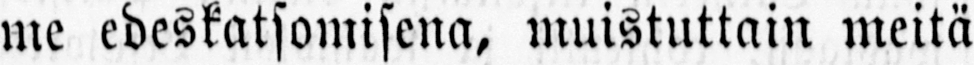me edeskatsomisena, muistuttain meitä
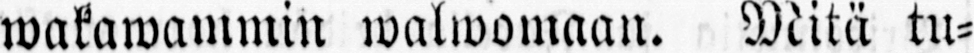wakawammin walwomaan. Mitä tu-
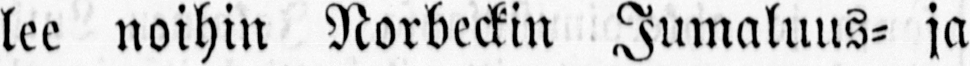lee noihin Norbeckin Jumaluus- ja
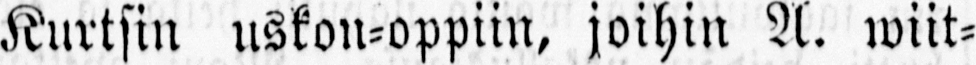Kurtsin uskon-oppiin, joihin N. wiit-
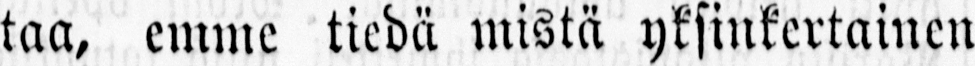taa, emme tiedä mistä yksinkertainen
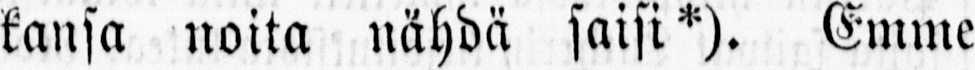kansa noita nähdä saisi*). Emme
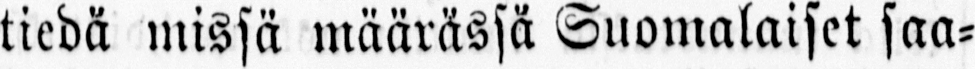tiedä missä määrässä Suomalaiset saa-
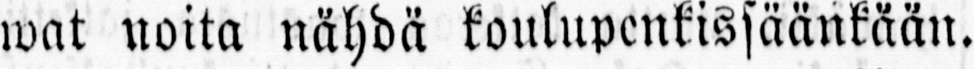wat noita nähdä koulupenkissäänkään.
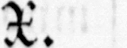X.
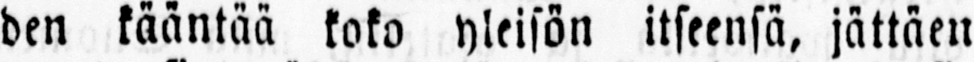den kääntää koko yleisön itseensä, jättäen
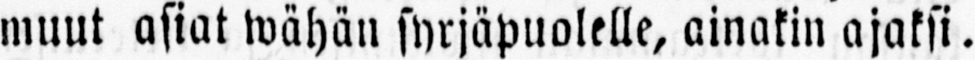muut asiat wähän syrjäpuolelle, ainakin ajaksi.
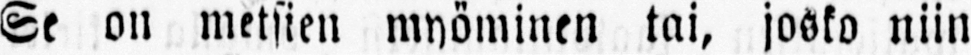Se on metsien myöminen tai, josko niin
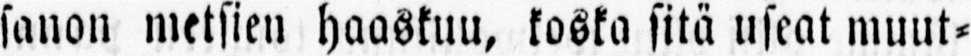sanon metsien haaskuu, koska sitä useat muut-
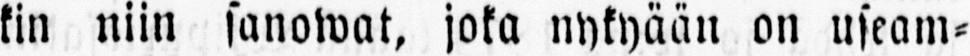kin niin sanowat, joka nykyään on useam-
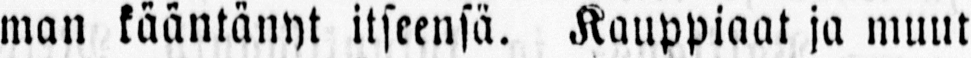man kääntänyt itseensä. Kauppiaat ja muut
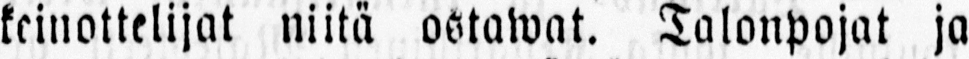keinottelijat niitä ostawat. Talonpojat ja
